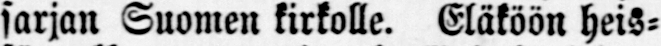sarjan Suomen kirkolle. Eläköön heis-
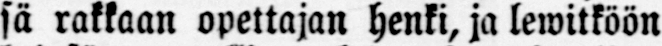sä rakkaan opettajan henki, ja lewitköön
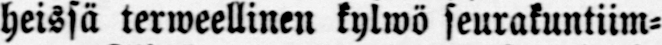heissä terweellinen kylwö seurakuntiim-
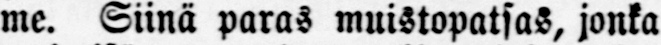me. Siinä paras muistopatsas, jonka
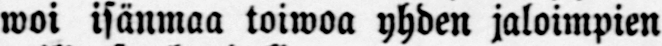woi isänmaa toiwoa yhden jaloimpien
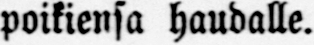poikiensa haudalle.
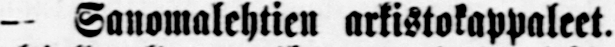- Sanomalehtien arkistokappaleet.
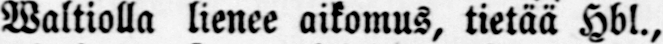Waltiolla lienee aikomus, tietää Hbl.,
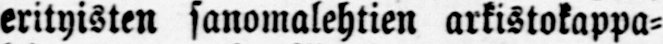erityisten sanomalehtien arkistokappa-
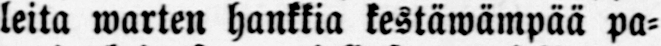leita warten hankkia kestäwämpää pa-
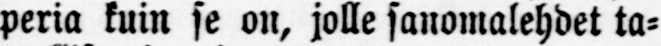peria kuin se on, jolle sanomalehdet ta-
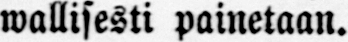wallisesti painetaan.
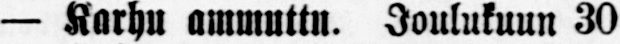— Karhu ammuttu. Joulukuun 30
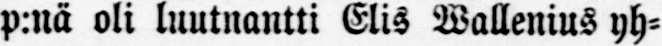p:nä oli luutnantti Elis Wallenius yh-
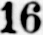16
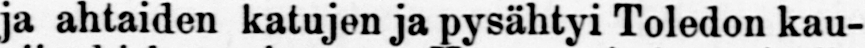ja ahtaiden katujen ja pysähtyi Toledon kau-
